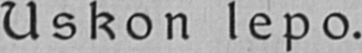Uskon lepo.
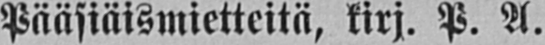Pääsiäismietteitä, kirj. P. A.
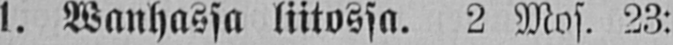1. Wanhassa liitossa. 2 Mos. 23:
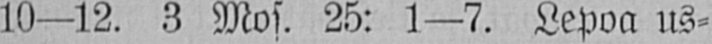10-12. 3 Mos. 25: 1—7. Lepoa us-
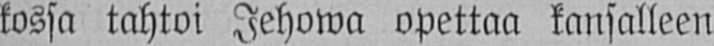kossa tahtoi Jehowa opettaa kansalleen
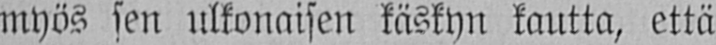myös sen ulkonaisen käskyn kautta, että
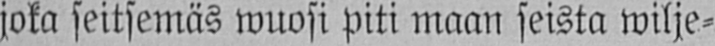joka seitsemäs wuosi piti maan seista wilje-
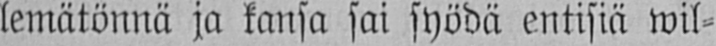lemätönnä ja kansa sai syödä entisiä wil-
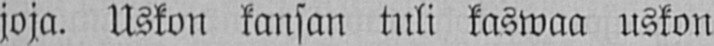joja. Uskon kansan tuli kaswaa uskon
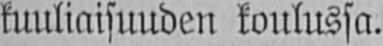kuuliaisuuden koulussa.
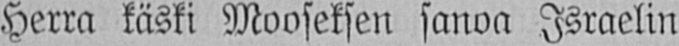Herra käski Mooseksen sanoa Israelin
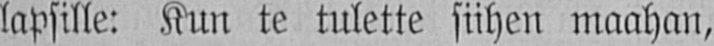lapsille: Kun te tulette siihen maahan,
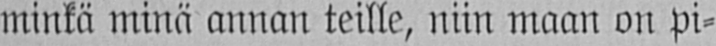minkä minä annan teille, niin maan on pi-
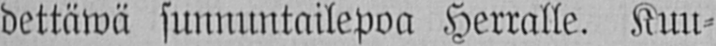dettäwä sunnuntailepoa Herralle. Kuu-
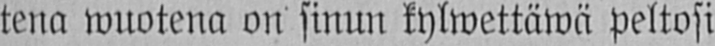tena wuotena on sinun kylwettäwä peltosi
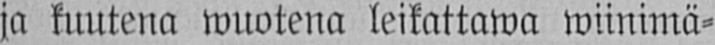ja kuutena wuotena leikattawa wiinimä-
